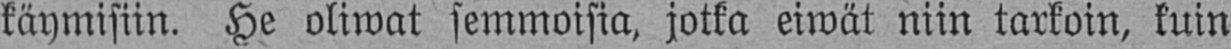käymisiin. He oliwat semmoisia, jotka eiwät niin tarkoin, kuin
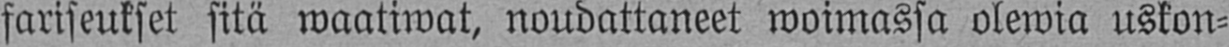fariseukset sitä waatiwat, noudattaneet woimassa olewia uskon-
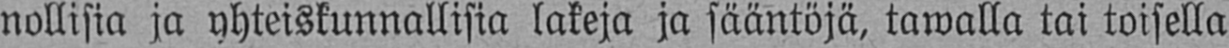nollisia ja yhteiskunnallisia lakeja ja sääntöjä, tawalla tai toisella
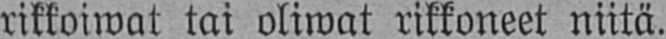rikkoiwat tai oliwat rikkoneet niitä.
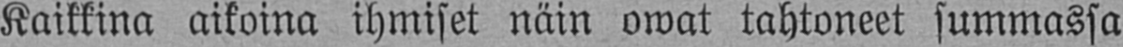Kaikkina aikoina ihmiset näin owat tahtoneet summassa
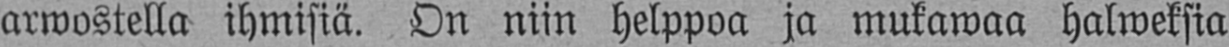arwostella ihmisiä. On niin helppoa ja mukawaa halweksia
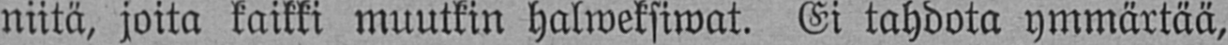niitä, joita kaikki muutkin halweksiwat. Ei tahdota ymmärtää,
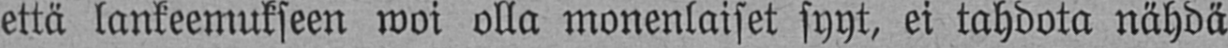että lankeemukseen woi olla monenlaiset syyt, ei tahdota nähdä
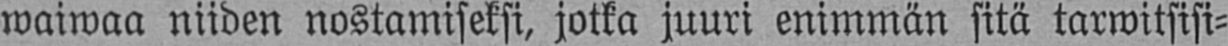waiwaa niiden nostamiseksi, jotka juuri enimmän sitä tarwitsisi-
